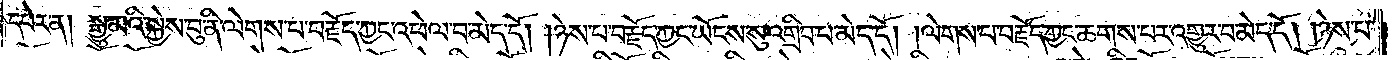དཔེར་ན། སྒྱུ་མའི་སྐྱེས་བུ་ནི་ལེགས་པ་བརྗོད་ཀྱང་འཕེལ་བ་མེད་དོ། །ཉེས་པ་བརྗོད་ཀྱང་ཡོངས་སུ་འགྲིབ་པ་མེད་དོ། །ལེགས་པ་བརྗོད་ཀྱང་ཆགས་པར་འགྱུར་བ་མེད་དོ། །ཉེས་པ་
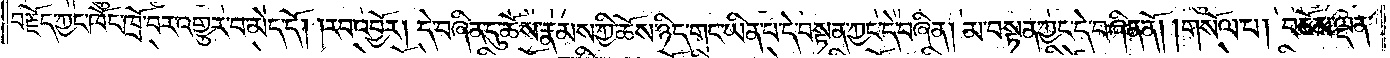བརྗོད་ཀྱང་ཁོང་ཁྲོ་བར་འགྱུར་བ་མེད་དོ། །རབ་འབྱོར། དེ་བཞིན་དུ་ཆོས་རྣམས་ཀྱི་ཆོས་ཉིད་གང་ཡིན་པ་དེ་བསྟན་ཀྱང་དེ་བཞིན། མ་བསྟན་ཀྱང་དེ་བཞིན་ནོ། །གསོལ་པ། བཅོམ་ལྡན་
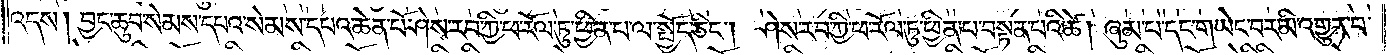འདས། བྱང་ཆུབ་སེམས་དཔའ་སེམས་དཔའ་ཆེན་པོ་ཤེས་རབ་ཀྱི་ཕ་རོལ་ཏུ་ཕྱིན་པ་ལ་སྤྱོད་ཅིང༌། ཤེས་རབ་ཀྱི་ཕ་རོལ་ཏུ་ཕྱིན་པ་བསྟན་པའི་ཚེ། ཞུམ་པ་དང་གཡེང་བར་མི་འགྱུར་བ་
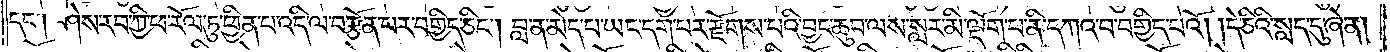དང༌། ཤེས་རབ་ཀྱི་ཕ་རོལ་ཏུ་ཕྱིན་པ་འདི་ལ་བརྩོན་པར་བགྱིད་ཅིང༌། བླ་ན་མེད་པ་ཡང་དག་པར་རྫོགས་པའི་བྱང་ཆུབ་ལས་སླར་མི་ལྡོག་པ་ནི་དཀའ་བ་བགྱིད་པའོ། །དེ་ཅིའི་སླད་དུ་ཞེ་ན།
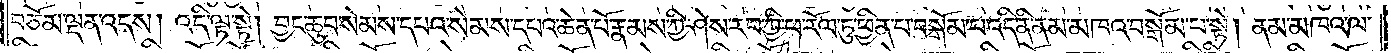བཅོམ་ལྡན་འདས། འདི་ལྟ་སྟེ། བྱང་ཆུབ་སེམས་དཔའ་སེམས་དཔའ་ཆེན་པོ་རྣམས་ཀྱི་ཤེས་རབ་ཀྱི་ཕ་རོལ་ཏུ་ཕྱིན་པ་བསྒོམ་པ་འདི་ནི་ནམ་མཁའ་བསྒོམ་པ་སྟེ། ནམ་མཁའ་ལ་
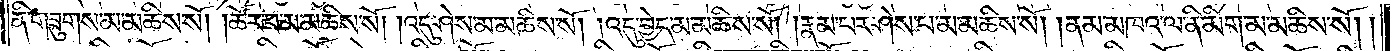ནི་གཟུགས་མ་མཆིས་སོ། །ཚོར་བ་མ་མཆིས་སོ། །འདུ་ཤེས་མ་མཆིས་སོ། །འདུ་བྱེད་མ་མཆིས་སོ། །རྣམ་པར་ཤེས་པ་མ་མཆིས་སོ། །ནམ་མཁའ་ལ་ནི་མིག་མ་མཆིས་སོ། །
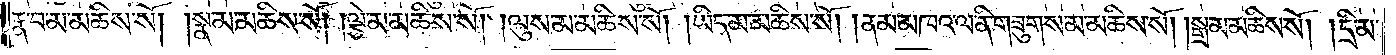རྣ་བ་མ་མཆིས་སོ། །སྣ་མ་མཆིས་སོ། །ལྕེ་མ་མཆིས་སོ། །ལུས་མ་མཆིས་སོ། །ཡིད་མ་མཆིས་སོ། །ནམ་མཁའ་ལ་ནི་གཟུགས་མ་མཆིས་སོ། །སྒྲ་མ་མཆིས་སོ། །དྲི་མ་
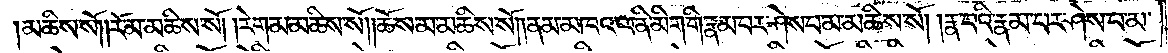མཆིས་སོ། །རོ་མ་མཆིས་སོ། །རེག་མ་མཆིས་སོ། །ཆོས་མ་མཆིས་སོ། །ནམ་མཁའ་ལ་ནི་མིག་གི་རྣམ་པར་ཤེས་པ་མ་མཆིས་སོ། །རྣ་བའི་རྣམ་པར་ཤེས་པ་མ་
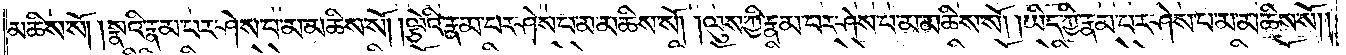མཆིས་སོ། །སྣའི་རྣམ་པར་ཤེས་པ་མ་མཆིས་སོ། །ལྕེའི་རྣམ་པར་ཤེས་པ་མ་མཆིས་སོ། །ལུས་ཀྱི་རྣམ་པར་ཤེས་པ་མ་མཆིས་སོ། །ཡིད་ཀྱི་རྣམ་པར་ཤེས་པ་མ་མཆིས་སོ། །
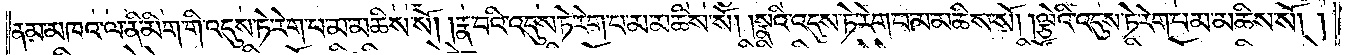ནམ་མཁའ་ལ་ནི་མིག་གི་འདུས་ཏེ་རེག་པ་མ་མཆིས་སོ། །རྣ་བའི་འདུས་ཏེ་རེག་པ་མ་མཆིས་སོ། །སྣའི་འདུས་ཏེ་རེག་པ་མ་མཆིས་སོ། །ལྕེའི་འདུས་ཏེ་རེག་པ་མ་མཆིས་སོ། །
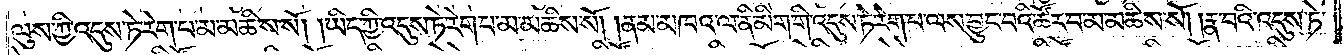ལུས་ཀྱི་འདུས་ཏེ་རེག་པ་མ་མཆིས་སོ། །ཡིད་ཀྱི་འདུས་ཏེ་རེག་པ་མ་མཆིས་སོ། །ནམ་མཁའ་ལ་ནི་མིག་གི་འདུས་ཏེ་རེག་པ་ལས་བྱུང་བའི་ཚོར་བ་མ་མཆིས་སོ། །རྣ་བའི་འདུས་ཏེ་
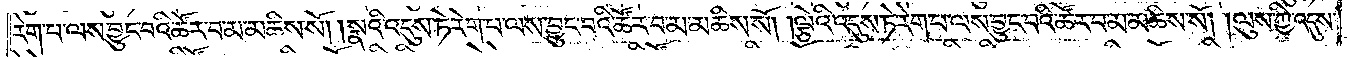རེག་པ་ལས་བྱུང་བའི་ཚོར་བ་མ་མཆིས་སོ། །སྣའི་འདུས་ཏེ་རེག་པ་ལས་བྱུང་བའི་ཚོར་བ་མ་མཆིས་སོ། །ལྕེའི་འདུས་ཏེ་རེག་པ་ལས་བྱུང་བའི་ཚོར་བ་མ་མཆིས་སོ། །ལུས་ཀྱི་འདུས་
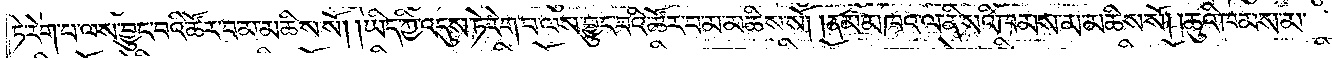ཏེ་རེག་པ་ལས་བྱུང་བའི་ཚོར་བ་མ་མཆིས་སོ། །ཡིད་ཀྱི་འདུས་ཏེ་རེག་པ་ལས་བྱུང་བའི་ཚོར་བ་མ་མཆིས་སོ། །ནམ་མཁའ་ལ་ནི་སའི་ཁམས་མ་མཆིས་སོ། །ཆུའི་ཁམས་མ་
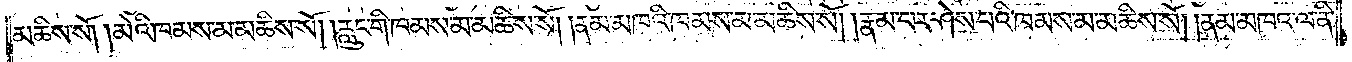མཆིས་སོ། །མེའི་ཁམས་མ་མཆིས་སོ། །རླུང་གི་ཁམས་མ་མཆིས་སོ། །ནམ་མཁའི་ཁམས་མ་མཆིས་སོ། །རྣམ་པར་ཤེས་པའི་ཁམས་མ་མཆིས་སོ། །ནམ་མཁའ་ལ་ནི་
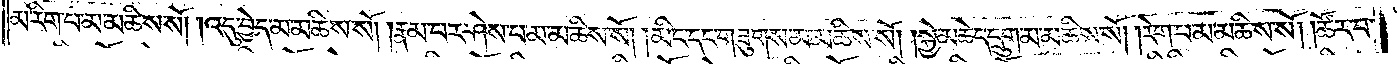མ་རིག་པ་མ་མཆིས་སོ། །འདུ་བྱེད་མ་མཆིས་སོ། །རྣམ་པར་ཤེས་པ་མ་མཆིས་སོ། །མིང་དང་གཟུགས་མ་མཆིས་སོ། །སྐྱེ་མཆེད་དྲུག་མ་མཆིས་སོ། །རེག་པ་མ་མཆིས་སོ། །ཚོར་བ་
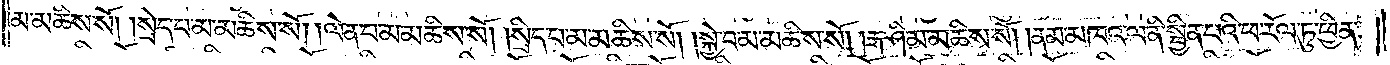མ་མཆིས་སོ། །སྲེད་པ་མ་མཆིས་སོ། །ལེན་པ་མ་མཆིས་སོ། །སྲིད་པ་མ་མཆིས་སོ། །སྐྱེ་བ་མ་མཆིས་སོ། །རྒ་ཤི་མ་མཆིས་སོ། །ནམ་མཁའ་ལ་ནི་སྦྱིན་པའི་ཕ་རོལ་ཏུ་ཕྱིན་
